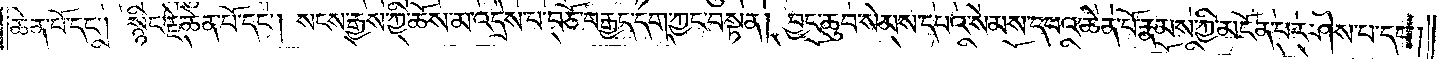ཆེན་པོ་དང༌། སྙིང་རྗེ་ཆེན་པོ་དང༌། སངས་རྒྱས་ཀྱི་ཆོས་མ་འདྲེས་པ་བཅོ་བརྒྱད་དག་ཀྱང་བསྟན། བྱང་ཆུབ་སེམས་དཔའ་སེམས་དཔའ་ཆེན་པོ་རྣམས་ཀྱི་མངོན་པར་ཤེས་པ་དང༌།
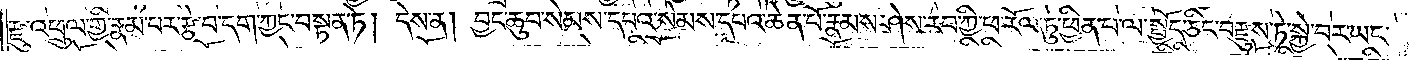རྫུ་འཕྲུལ་གྱི་རྣམ་པར་རྩེ་བ་དག་ཀྱང་བསྟན་ཏེ། དེས་ན། བྱང་ཆུབ་སེམས་དཔའ་སེམས་དཔའ་ཆེན་པོ་རྣམས་ཤེས་རབ་ཀྱི་ཕ་རོལ་ཏུ་ཕྱིན་པ་ལ་སྤྱོད་ཅིང་བརྫུས་ཏེ་སྐྱེ་བར་ཡང་
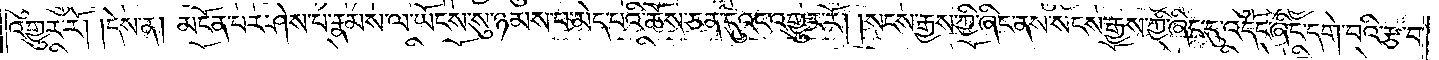འགྱུར་རོ། །དེས་ན། མངོན་བར་ཤེས་པ་རྣམས་ལ་ཡོངས་སུ་ཉམས་པ་མེད་པའི་ཆོས་ཅན་དུའང་འགྱུར་རོ། །སངས་རྒྱས་ཀྱི་ཞིང་ནས་སངས་རྒྱས་ཀྱི་ཞིང་དུ་འདོང་ཞིང་དགེ་བའི་རྩ་བ་
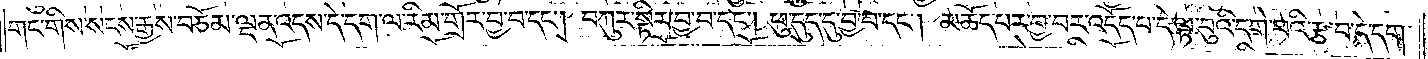གང་གིས་སངས་རྒྱས་བཅོམ་ལྡན་འདས་དེ་དག་ལ་རིམ་གྲོར་བྱ་བ་དང༌། བཀུར་སྟིར་བྱ་བ་དང༌། ཕུ་དུད་དུ་བྱ་བ་དང༌། མཆོད་པར་བྱ་བར་འདོད་པ་དེ་ལྟ་བུའི་དགེ་བའི་རྩ་བ་དེ་དག་
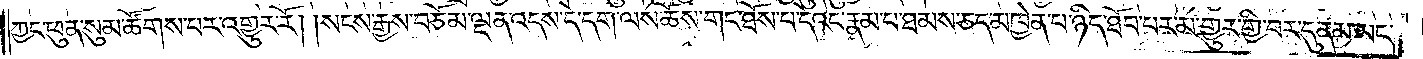ཀྱང་ཕུན་སུམ་ཚོགས་པར་འགྱུར་རོ། །སངས་རྒྱས་བཅོམ་ལྡན་འདས་དེ་དག་ལས་ཆོས་གང་ཐོས་པ་དེའང་རྣམ་པ་ཐམས་ཅད་མཁྱེན་པ་ཉིད་ཐོབ་པར་མ་གྱུར་གྱི་བར་དུ་ནམ་ཡང་
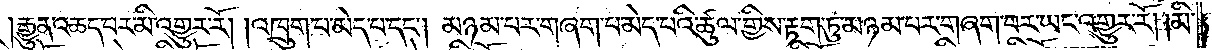རྒྱུན་འཆད་པར་མི་འགྱུར་རོ། །འཁྲུག་པ་མེད་པ་དང༌། མཉམ་པར་བཞག་པ་མེད་པའི་ཚུལ་གྱིས་རྟག་ཏུ་མཉམ་པར་གཞག་པར་ཡང་འགྱུར་རོ། །མི་
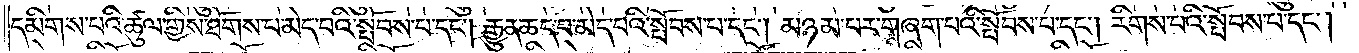དམིགས་པའི་ཚུལ་གྱིས་ཐོགས་པ་མེད་པའི་སྤོབས་པ་དང༌། རྒྱུན་ཆད་པ་མེད་པའི་སྤོབས་པ་དང༌། མཉམ་པར་གཞག་པའི་སྤོབས་པ་དང༌། རིགས་པའི་སྤོབས་པ་དང༌།
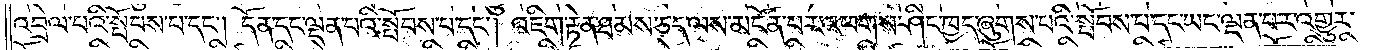འབྲེལ་པའི་སྤོབས་པ་དང༌། དོན་དང་ལྡན་པའི་སྤོབས་པ་དང༌། འཇིག་རྟེན་ཐམས་ཅད་ལས་མངོན་པར་འཕགས་ཤིང་ཁྱད་ཞུགས་པའི་སྤོབས་པ་དང་ཡང་ལྡན་པར་འགྱུར་
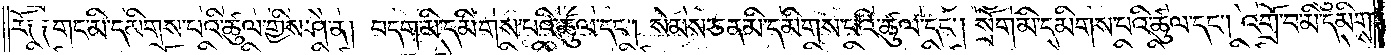རོ༏ ༏གང་མི་དམིགས་པའི་ཚུལ་གྱིས་ཞེ་ན། བདག་མི་དམིགས་པའི་ཚུལ་དང༌། སེམས་ཅན་མི་དམིགས་པའི་ཚུལ་དང༌། སྲོག་མི་དམིགས་པའི་ཚུལ་དང༌། འགྲོ་བ་མི་དམིགས་
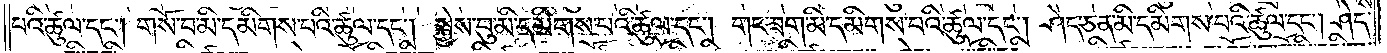པའི་ཚུལ་དང༌། གསོ་བ་མི་དམིགས་པའི་ཚུལ་དང༌། སྐྱེས་བུ་མི་དམིགས་པའི་ཚུལ་དང༌། གང་ཟག་མི་དམིགས་པའི་ཚུལ་དང༌། ཤེད་ཅན་མི་དམིགས་པའི་ཚུལ་དང༌། ཤེད་
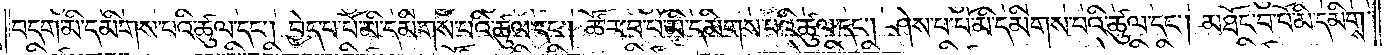བདག་མི་དམིགས་པའི་ཚུལ་དང༌། བྱེད་པ་པོ་མི་དམིགས་པའི་ཚུལ་དང༌། ཚོར་བ་པོ་མི་དམིགས་པའི་ཚུལ་དང༌། ཤེས་པ་པོ་མི་དམིགས་པའི་ཚུལ་དང༌། མཐོང་བ་པོ་མི་དམིགས་
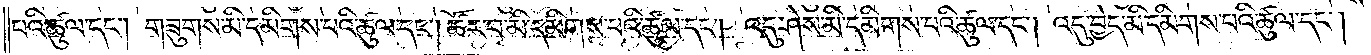པའི་ཚུལ་དང༌། གཟུགས་མི་དམིགས་པའི་ཚུལ་དང༌། ཚོར་བ་མི་དམིགས་པའི་ཚུལ་དང༌། འདུ་ཤེས་མི་དམིགས་པའི་ཚུལ་དང༌། འདུ་བྱེད་མི་དམིགས་པའི་ཚུལ་དང༌།
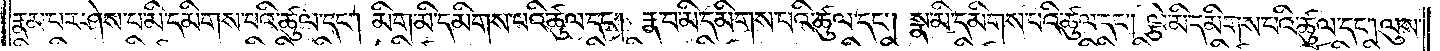རྣམ་པར་ཤེས་པ་མི་དམིགས་པའི་ཚུལ་དང༌། མིག་མི་དམིགས་པའི་ཚུལ་དང༌། རྣ་བ་མི་དམིགས་པའི་ཚུལ་དང༌། སྣ་མི་དམིགས་པའི་ཚུལ་དང༌། ལྕེ་མི་དམིགས་པའི་ཚུལ་དང༌། ལུས་
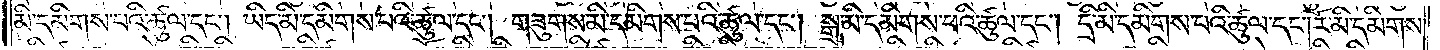མི་དམིགས་པའི་ཚུལ་དང༌། ཡིད་མི་དམིགས་པའི་ཚུལ་དང༌། གཟུགས་མི་དམིགས་པའི་ཚུལ་དང༌། སྒྲ་མི་དམིགས་པའི་ཚུལ་དང༌། དྲི་མི་དམིགས་པའི་ཚུལ་དང༌། རོ་མི་དམིགས་
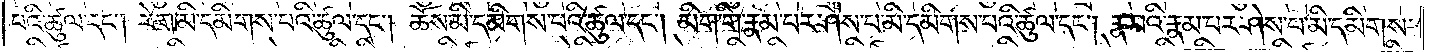པའི་ཚུལ་དང༌། རེག་མི་དམིགས་པའི་ཚུལ་དང༌། ཆོས་མི་དམིགས་པའི་ཚུལ་དང༌། །མིག་གི་རྣམ་པར་ཤེས་པ་མི་དམིགས་པའི་ཚུལ་དང༌། རྣ་བའི་རྣམ་པར་ཤེས་པ་མི་དམིགས་
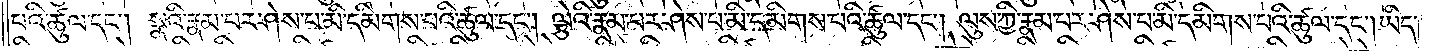པའི་ཚུལ་དང༌། སྣའི་རྣམ་པར་ཤེས་པ་མི་དམིགས་པའི་ཚུལ་དང༌། ལྕེའི་རྣམ་པར་ཤེས་པ་མི་དམིགས་པའི་ཚུལ་དང༌། ལུས་ཀྱི་རྣམ་པར་ཤེས་པ་མི་དམིགས་པའི་ཚུལ་དང༌། ཡིད་
